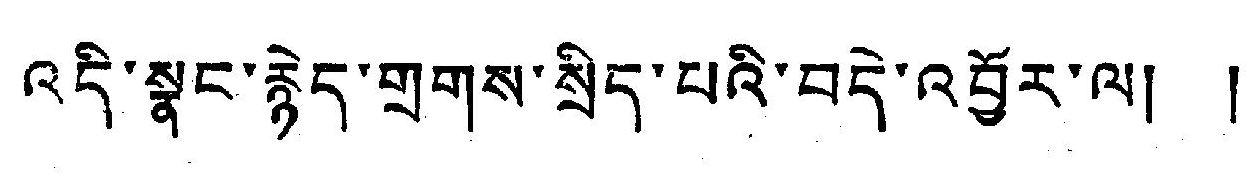འདི་སྣང་རྙེད་གྲགས་སྲིད་པའི་བདེ་འབྱོར་ལ། །
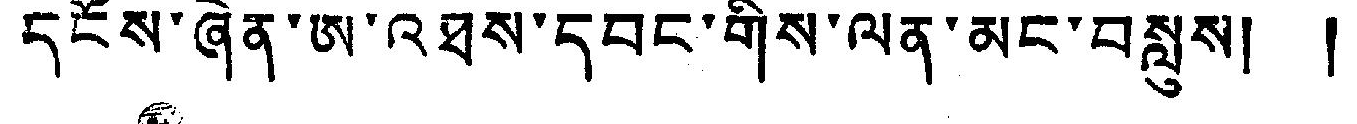དངོས་ཞེན་ཨ་འཐས་དབང་གིས་ལན་མང་བསླུས། །
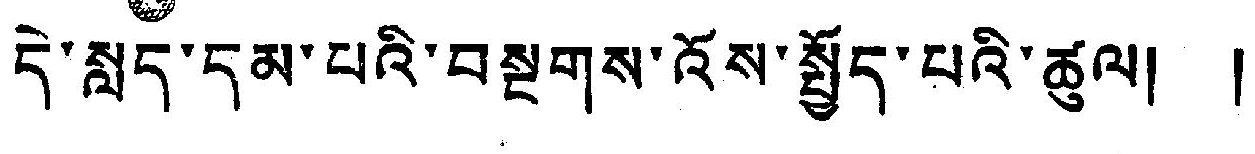དེ་སླད་དམ་པའི་བསྔགས་འོས་སྤྱོད་པའི་ཚུལ། །
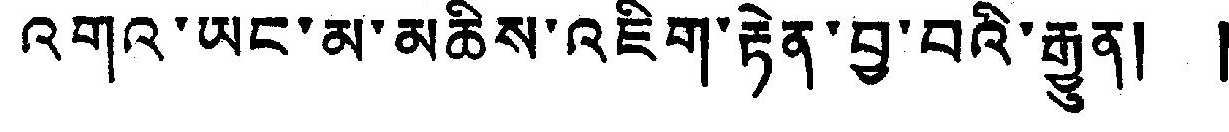འགའ་ཡང་མ་མཆིས་འཇིག་རྟེན་བྱ་བའི་རྒྱུན། །
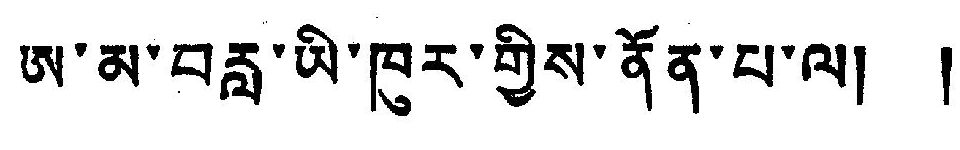ཨ་མ་བརླ་ཡི་ཁུར་གྱིས་ནོན་པ་ལ། །
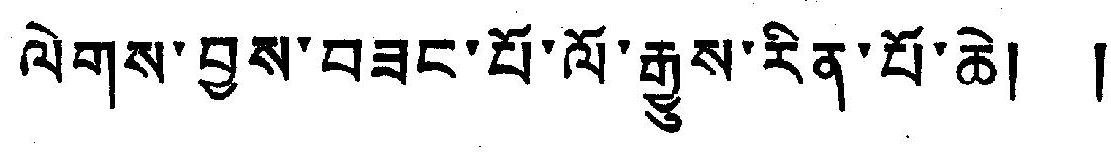ལེགས་བྱས་བཟང་པོ་ལོ་རྒྱུས་རིན་པོ་ཆེ། །
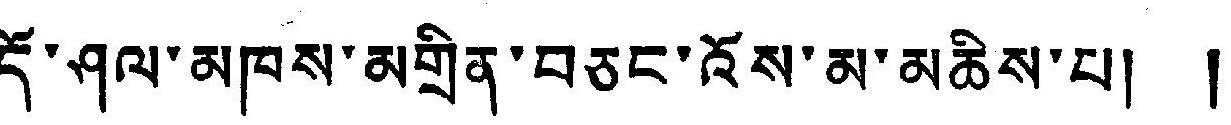དོ་ཤལ་མཁས་མགྲིན་བཅང་འོས་མ་མཆིས་པ། །
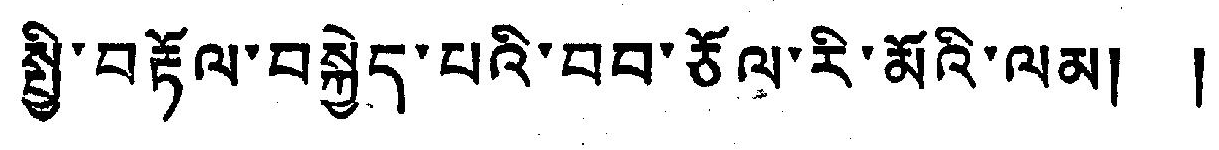སྤྱི་བརྟོལ་བསྐྱེད་པའི་བབ་ཅོལ་རི་མོའི་ལམ། །
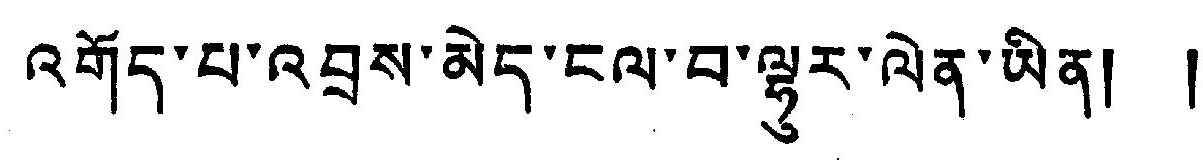འགོད་པ་འབྲས་མེད་ངལ་བ་ལྷུར་ལེན་ཡིན། །
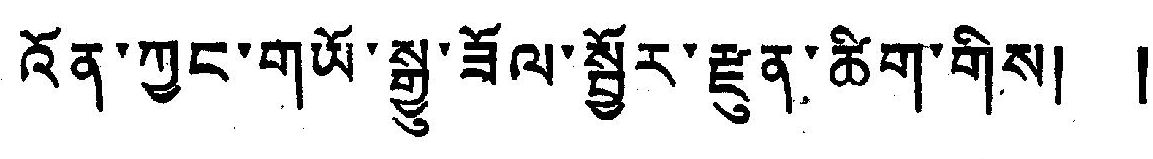འོན་ཀྱང་གཡོ་སྒྱུ་ཟོལ་སྦྱོར་རྫུན་ཚིག་གིས། །
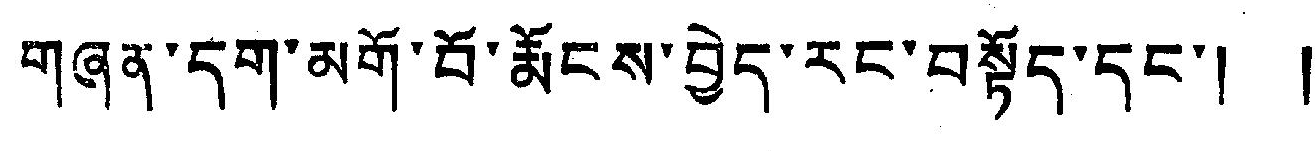གཞན་དག་མགོ་བོ་རྨོངས་བྱེད་རང་བསྟོད་དང་། །
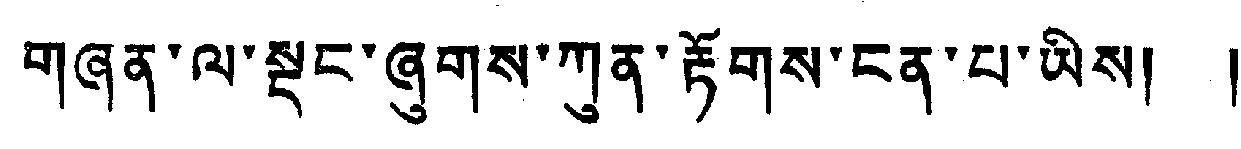གཞན་ལ་སྡང་ཞུགས་ཀུན་རྟོགས་ངན་པ་ཡིས། །
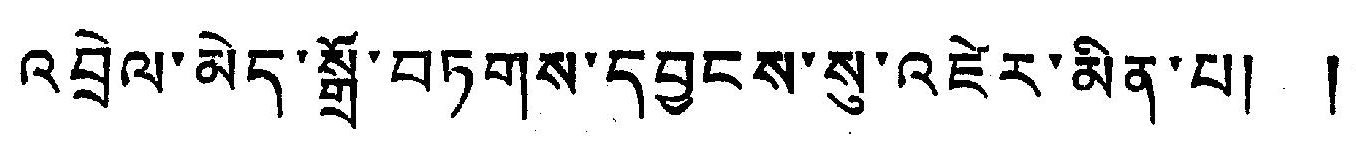འབྲེལ་མེད་སྒྲོ་བཏགས་དབྱངས་སུ་འཛེར་མིན་པ། །
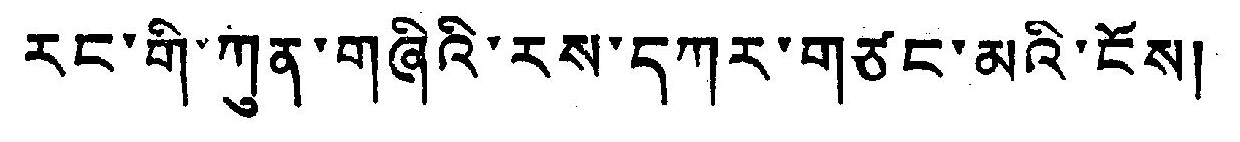རང་གི་ཀུན་གཞིའི་རས་དཀར་གཙང་མའི་ངོས། །
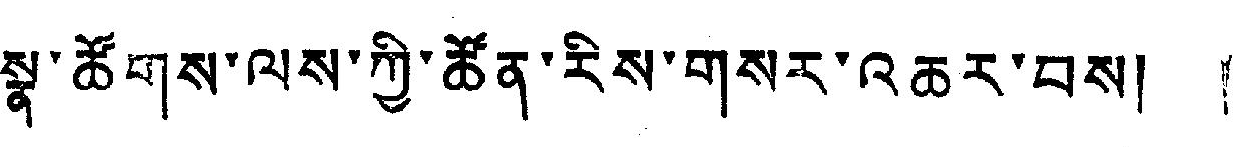སྣ་ཚོགས་ལས་ཀྱི་ཚོན་རིས་གསར་འཆར་བས། །
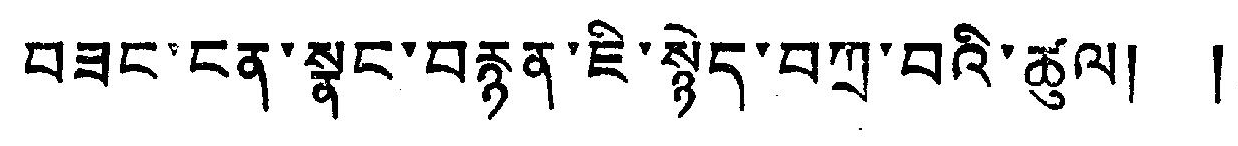བཟང་ངན་སྣང་བརྙན་ཇི་སྙེད་བཀྲ་བའི་ཚུལ། །
